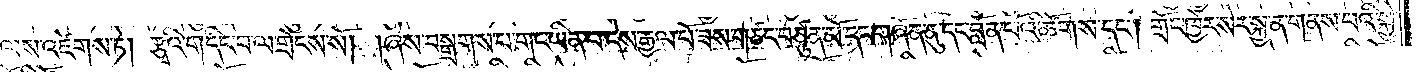ལས་འཛེགས་ཏེ། རྩྭའི་གདིང་བ་ལ་གྲོངས་སོ། །ཞེས་བསྒྲགས་པ་གང་ཡིན་པ་དེས་རྒྱལ་པོ་ཟས་གཙང་བཙུན་མོ་དང་གཞོན་ནུ་དང་བློན་པོའི་ཚོགས་དང༌། གྲོང་ཁྱེར་སེར་སྐྱ་ན་གནས་པའི་སྐྱེ་
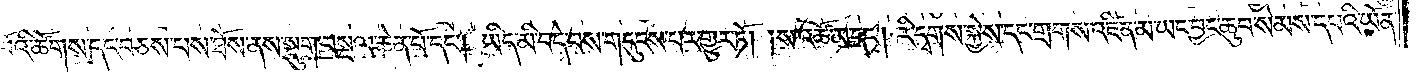བོའི་ཚོགས་དང་བཅས་པས་ཐོས་ནས་སྡུག་བསྔལ་ཆེན་པོ་དང༌། ཡིད་མི་བདེ་བས་གདུངས་པར་གྱུར་ཏོ། །ས་འཚོ་མ་དང༌། རི་དྭགས་སྐྱེས་དང་གྲགས་འཛིན་མ་ཡང་བྱང་ཆུབ་སེམས་དཔའི་ཡོན་
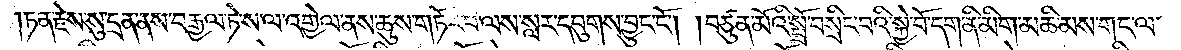།ཏན་རྗེས་སུ་དྲན་ནས་བརྒྱལ་ཏེ་ས་ལ་འགྱེལ་ནས་ཆུས་གཏོར་བ་ལས་སླར་དབུགས་བྱུང་ངོ༌། །བཙུན་མོའི་སྤྲོ་བསྲིང་བའི་སྐྱེ་བོ་དག་ནི་མིག་མཆི་མས་གང་ལ་
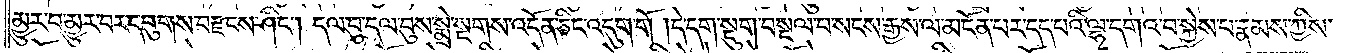མྱུར་བ་མྱུར་བར་དབུགས་བརྫངས་ཤིང༌། དལ་བུ་དལ་བུས་སྨྲེ་སྔགས་འདོན་ཅིང་འདུག་གོ །དེ་དག་སྡུག་བསྔལ་བ་སངས་རྒྱས་ལ་མངོན་པར་དད་པའི་ལྷ་དགའ་བ་སྐྱེས་པ་རྣམས་ཀྱིས་
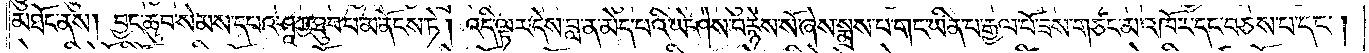མཐོང་ནས། བྱང་ཆུབ་སེམས་དཔའ་ཤཱཀྱ་ཐུབ་པ་མ་ནོངས་ཏེ། འདི་ལྟར་དེས་བླ་ན་མེད་པའི་ཡེ་ཤེས་བརྙེས་སོ་ཞེས་སྨྲས་པ་གང་ཡིན་པ་རྒྱལ་པོ་ཟས་གཙང་མ་འཁོར་དང་བཅས་པ་དང༌།
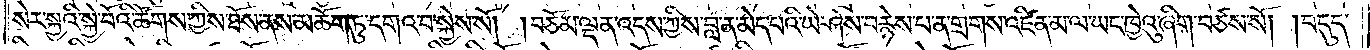སེར་སྐྱའི་སྐྱེ་བོའི་ཚོགས་ཀྱིས་ཐོས་ནས་མཆོག་ཏུ་དགའ་བ་སྐྱེས་སོ། །བཅོམ་ལྡན་འདས་ཀྱིས་བླ་ན་མེད་པའི་ཡེ་ཤེས་བརྙེས་པ་ན་གྲགས་འཛིན་མ་ལ་ཡང་ཁྱེའུ་ཞིག་བཙས་སོ། །བདུད་
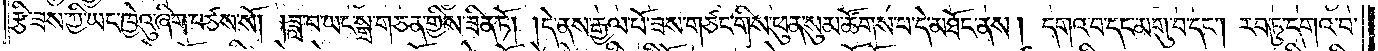རྩི་ཟས་ཀྱི་ཡང་ཁྱེའུ་ཞིག་བཙས་སོ། །ཟླ་བ་ཡང་སྒྲ་གཅན་གྱིས་ཟིན་ཏོ། །དེ་ནས་རྒྱལ་པོ་ཟས་གཙང་གིས་ཕུན་སུམ་ཚོགས་པ་དེ་མཐོང་ནས། དགའ་བ་དང་མགུ་བ་དང༌། རབ་ཏུ་དགའ་བ་
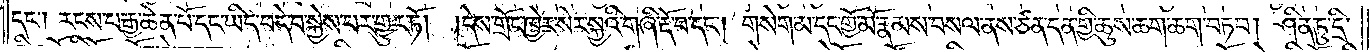དང༌། རངས་པ་རྒྱ་ཆེན་པོ་དང་ཡིད་བདེ་བ་སྐྱེས་པར་གྱུར་ཏོ། །དེས་གྲོང་ཁྱེར་སེར་སྐྱའི་གཞི་རྡོ་བ་དང༌། གསེག་མ་དང་གཡོ་མོ་རྣམས་བསལ་ནས་ཙན་དན་གྱི་ཆུས་ཆག་ཆག་བཏབ། ཤིན་ཏུ་དྲི་
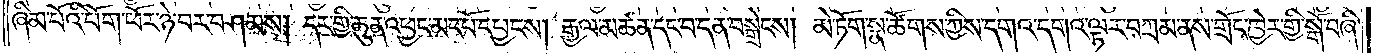ཞིམ་པོའི་པོག་ཕོར་ཉེ་བར་བཤམས། དར་གྱི་ཆུན་འཕྱང་མང་པོ་དཔྱངས། རྒྱལ་མཚན་དང་བ་དན་བསྒྲེངས། མེ་ཏོག་སྣ་ཚོགས་ཀྱིས་དགའ་དགའ་ལྟར་བཀྲམ་ནས་གྲོང་ཁྱེར་གྱི་སྒོ་བཞི་
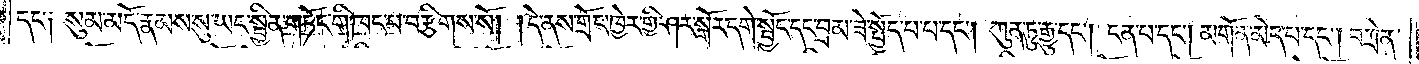དང་༑ སུམ་མདོ་རྣམས་སུ་ཡང་སྦྱིན་གཏོང་གི་ཁང་པ་བརྩིགས་སོ། །དེ་ནས་གྲོང་ཁྱེར་གྱི་ཤར་སྒོར་དགེ་སྦྱོང་དང་བྲམ་ཟེ་སྤྱོད་པ་པ་དང༌། ཀུན་ཏུ་རྒྱུ་དང༌། ངན་པ་དང༌། མགོན་མེད་པ་དང༌། བཀྲེན་
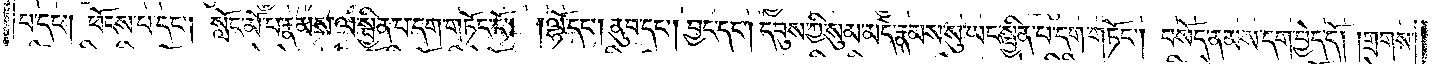པ་དང༌། ཕོངས་པ་དང༌། སློང་མོ་པ་རྣམས་ལ་སྦྱིན་པ་དག་གཏོང་ངོ༌། །ལྷོ་དང༌། ནུབ་དང༌། བྱང་དང༌། དབུས་ཀྱི་སུམ་མདོ་རྣམས་སུ་ཡང་སྦྱིན་པ་དག་གཏོང༌། བསོད་ནམས་དག་བྱེད་དོ། །གྲགས་
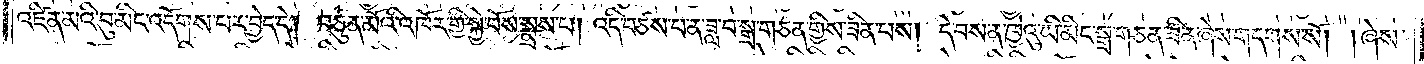འཛིན་མའི་བུ་མིང་འདོགས་པར་བྱེད་དེ། བཙུན་མོའི་འཁོར་གྱི་སྐྱེ་བོས་སྨྲས་པ། འདི་བཙས་པ་ན་ཟླ་བ་སྒྲ་གཅན་གྱིས་ཟིན་པས། དེ་བས་ན་ཁྱེའུ་ཡི་མིང་སྒྲ་གཅན་ཟིན་ཞེས་གདགས་སོ། །ཞེས་
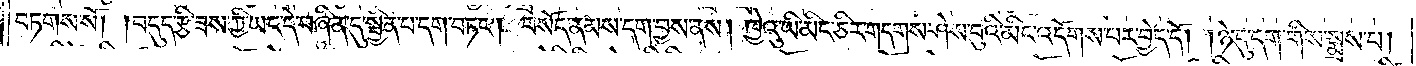བཏགས་སོ། །བདུད་རྩི་ཟས་ཀྱི་ཡང་དེ་བཞིན་དུ་སྦྱིན་པ་དག་བཏང༌། བསོད་ནམས་དག་བྱས་ནས། ཁྱེའུ་ཡི་མིང་ཅིར་གདགས་ཤེས་བུའི་མིང་འདོགས་པར་བྱེད་དོ། །ཉེ་དུ་དག་གིས་སྨྲས་པ།
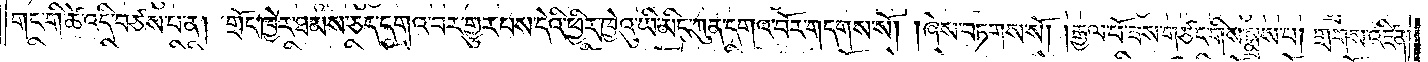གང་གི་ཚེ་འདི་བཙས་པ་ན། གྲོང་ཁྱེར་ཐམས་ཅད་དགའ་བར་གྱུར་པས་དེའི་ཕྱིར་ཁྱེའུ་ཡི་མིང་ཀུན་དགའ་བོར་གདགས་སོ། །ཞེས་བཏགས་སོ། །རྒྱལ་པོ་ཟས་གཙང་གིས་སྨྲས་པ། གྲགས་འཛིན་
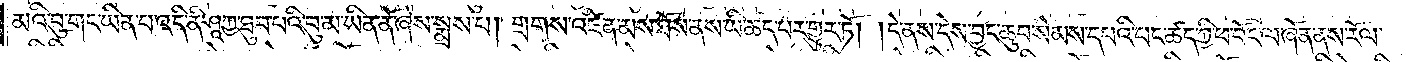མའི་བུ་གང་ཡིན་པ་འདི་ནི་ཤཱཀྱ་ཐུབ་པའི་བུ་མ་ཡིན་ནོ་ཞེས་སྨྲས་པ། གྲགས་འཛིན་མས་ཐོས་ནས་ཡི་ཆད་པར་གྱུར་ཏོ། །དེ་ནས་དེས་བྱང་ཆུབ་སེམས་དཔའི་པང་ཚད་ཀྱི་ཕ་བོང་ལ་ཞོན་ནས་རོལ་
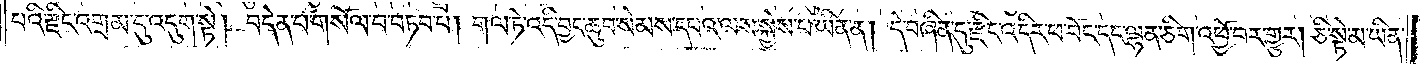པའི་རྫིང་འགྲམ་དུ་འདུག་སྟེ། བདེན་པ་གསོལ་པ་བཏབ་པ། གལ་ཏེ་འདི་བྱང་ཆུབ་སེམས་དཔའ་ལས་སྐྱེས་པ་ཡིན་ན། དེ་བཞིན་དུ་རྫིང་འདིར་ཕ་བོང་དང་ལྷན་ཅིག་འཕྱོ་བར་གྱུར། ཅི་སྟེ་མ་ཡིན་
